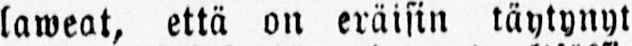laweat, että on eräisin täytynyt
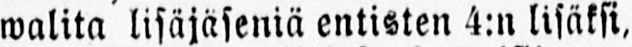walita lisäjäseniä entisten 4:n lisäksi,
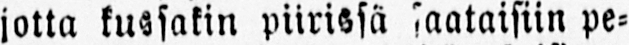jotta kussakin piirissä saataisiin pe-
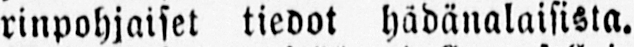rinpohjaiset tiedot hädänalaisista.
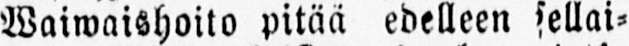Waiwaishoito pitää edelleen sellai-
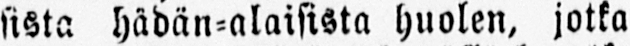sista hädän-alaisista huolen, jotka
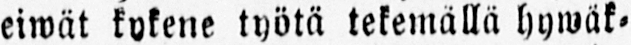eiwät kykene työtä tekemällä hywäk-
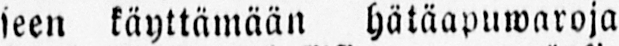seen käyttämään hätäapuwaroja
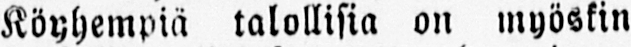Köyhempiä talollisia on myöskin
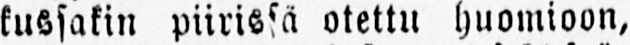kussakin piirissä otettu huomioon,
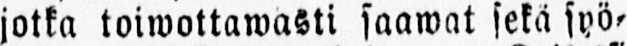jotka toiwottawasti saawat seka syö-
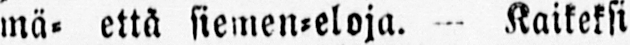mä- että siemen-eloja. Kaikeksi
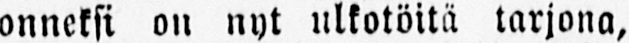onneksi on nyt ulkotöitä tarjona,
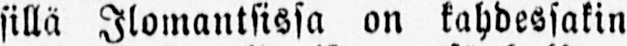sillä Ilomantsissa on kahdessakin
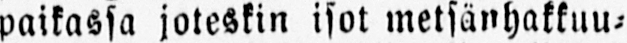paikassa joteskin isot metsänhakkuu-
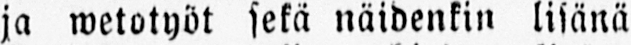ja wetotyöt sekä näidenkin lisänä
